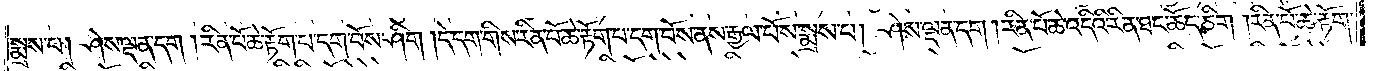སྨྲས་པ། ཤེས་ལྡན་དག །རིན་པོ་ཆེ་རྟོག་པ་དག་བོས་ཤིག །དེ་དག་གིས་རིན་པོ་ཆེ་རྟོག་པ་དག་བོས་ནས་རྒྱལ་པོས་སྨྲས་པ། ཤེས་ལྡན་དག །རིན་པོ་ཆེ་འདིའི་རིན་ཐང་ཆོད་ཅིག །རིན་པོ་ཆེ་རྟོག་
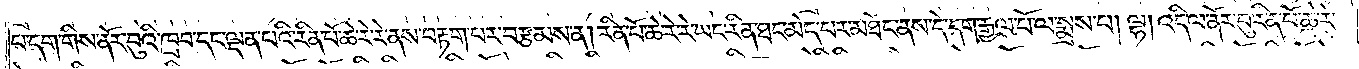པ་དག་གིས་ནོར་བུའི་ཁྲབ་དང་ལྡན་པའི་རིན་པོ་ཆེ་རེ་རེ་ནས་བརྟག་པར་བརྩམས་ན། རིན་པོ་ཆེ་རེ་རེ་ཡང་རིན་ཐང་མེད་པར་མཐོང་ནས་དེ་དག་རྒྱལ་པོ་ལ་སྨྲས་པ། ལྷ། འདི་ལ་ནོར་བུ་རིན་པོ་ཆེ་རེ་
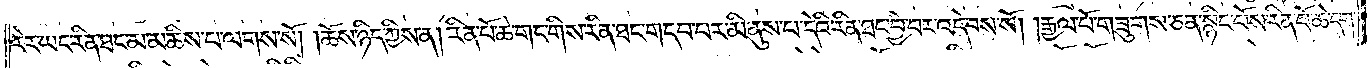རེར་ཡང་རིན་ཐང་མ་མཆིས་པ་ལགས་སོ། །ཆོས་ཉིད་ཀྱིས་ན། རིན་པོ་ཆེ་གང་གིས་རིན་ཐང་གདབ་པར་མི་ནུས་པ་དེའི་རིན་ཐང་བྱེ་བར་འདེབས་སོ། །རྒྱལ་པོ་གཟུགས་ཅན་སྙིང་པོས་རིན་པོ་ཆེ་དག་
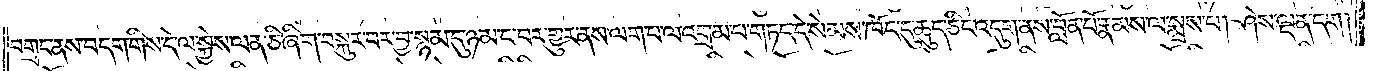བགྲང་ནས་བདག་གིས་དེ་ལ་སྐྱེས་ལན་ཅི་ཞིག་བསྐུར་བར་བྱ་སྙམ་དུ་ཉམ་ང་བར་གྱུར་ནས་ལག་པ་ལ་འགྲམ་པ་གཏད་དེ་སེམས་ཁོང་དུ་ཆུད་ཅིང་འདུག་ནས་བློན་པོ་རྣམས་ལ་སྨྲས་པ། ཤེས་ལྡན་དག།
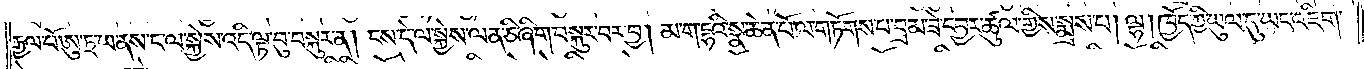རྒྱལ་པོ་ཨུ་ཏྲ་ཡ་ནས་ང་ལ་སྐྱེས་འདི་ལྟ་བུ་བསྐུར་ན། ངས་དེ་ལ་སྐྱེས་ལན་ཅི་ཞིག་བསྐུར་བར་བྱ། མ་ག་དྷའི་སྣ་ཆེན་པོ་ལ་གཏོགས་པ་བྲམ་ཟེ་དབྱར་ཚུལ་གྱིས་སྨྲས་པ། ལྷ། ཁྱོད་ཀྱི་ཡུལ་དུ་ཡང་འཇིག་
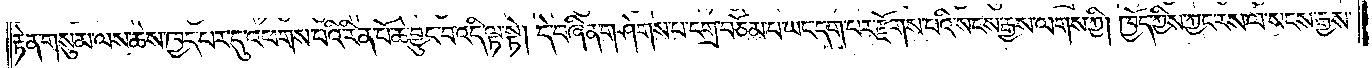རྟེན་གསུམ་ལས་ཆེས་ཁྱད་པར་དུ་འཕགས་པའི་རིན་པོ་ཆེ་བྱུང་བ་འདི་ལྟ་སྟེ། དེ་བཞིན་གཤེགས་པ་དགྲ་བཅོམ་པ་ཡང་དག་པར་རྫོགས་པའི་སངས་རྒྱས་ལགས་ཀྱི། ཁྱོད་ཀྱིས་ཀྱང་རས་ལ་སངས་རྒྱས་
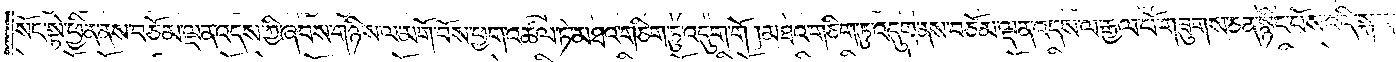སོང་སྟེ་ཕྱིན་ནས་བཅོམ་ལྡན་འདས་ཀྱི་ཞབས་གཉིས་ལ་མགོ་བོས་ཕྱག་འཚལ་ཏེ་མཐའ་གཅིག་ཏུ་འདུག་གོ །མཐའ་གཅིག་ཏུ་འདུག་ནས་བཅོམ་ལྡན་འདས་ལ་རྒྱལ་པོ་གཟུགས་ཅན་སྙིང་པོས་འདི་སྐད་
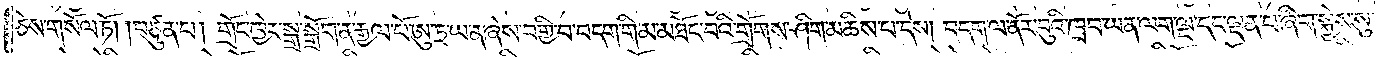ཅེས་གསོལ་ཏོ། །བཙུན་པ། གྲོང་ཁྱེར་སྒྲ་སྒྲོག་ན་རྒྱལ་པོ་ཨུ་ཏྲ་ཡ་ན་ཞེས་བགྱི་བ་བདག་གི་མཐོང་བའི་གྲོགས་ཤིག་མཆིས་པ་དེས། བདག་ལ་ནོར་བུའི་ཁྲབ་ཡན་ལག་ལྔ་དང་ལྡན་པ་ཞིག་སྐྱེས་སུ་
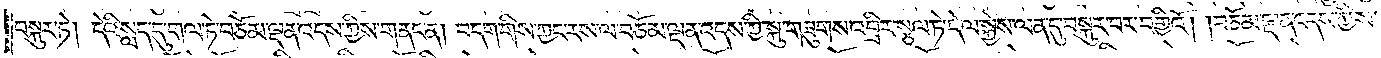བསྐུར་ཏེ། དེའི་སླད་དུ་གལ་ཏེ་བཅོམ་ལྡན་འདས་ཀྱིས་གནང་ན། བདག་གིས་ཀྱང་རས་ལ་བཅོམ་ལྡན་འདས་ཀྱི་སྐུ་གཟུགས་འབྲིར་སྩལ་ཏེ་དེ་ལ་སྐྱེས་ལན་དུ་བསྐུར་བར་བགྱིའོ། །བཅོམ་ལྡན་འདས་ཀྱིས་
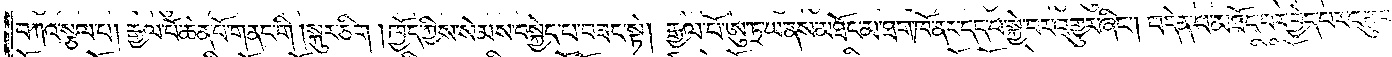བཀའ་སྩལ་པ། རྒྱལ་པོ་ཆེན་པོ་གནང་གི །སྐུར་ཅིག །ཁྱོད་ཀྱིས་སེམས་བསྐྱེད་པ་བཟང་སྟེ། རྒྱལ་པོ་ཨུ་ཏྲ་ཡ་ནས་མཐོང་མ་ཐག་ཁོ་ནར་དད་པ་སྐྱེ་བར་འགྱུར་ཞིང༌། བདེན་པ་མཐོང་བར་བྱེད་པར་འགྱུར་
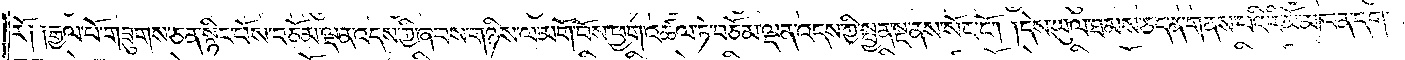རོ༑ ༑རྒྱལ་པོ་གཟུགས་ཅན་སྙིང་པོས་བཅོམ་ལྡན་འདས་ཀྱི་ཞབས་གཉིས་ལ་མགོ་བོས་ཕྱག་འཚལ་ཏེ་བཅོམ་ལྡན་འདས་ཀྱི་སྤྱན་སྔ་ནས་སོང་ངོ༌། །དེས་ཡུལ་ཐམས་ཅད་ན་གནས་པའི་རི་མོ་མཁན་དག་
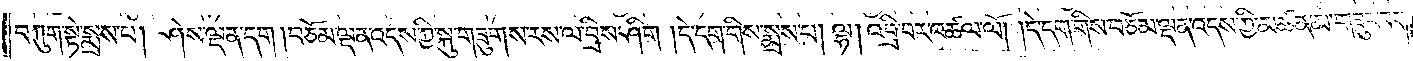བཀུག་སྟེ་སྨྲས་པ། ཤེས་ལྡན་དག །བཅོམ་ལྡན་འདས་ཀྱི་སྐུ་གཟུགས་རས་ལ་བྲིས་ཤིག །དེ་དག་གིས་སྨྲས་པ། ལྷ། འབྲི་བར་འཚལ་ལོ། །དེ་དག་གིས་བཅོམ་ལྡན་འདས་ཀྱི་མཚན་མ་གཟུང་བ་
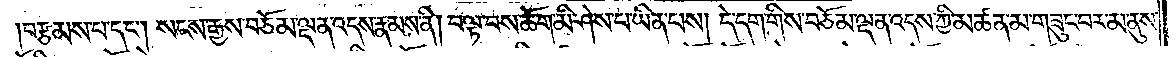བརྩམས་པ་དང༌། སངས་རྒྱས་བཅོམ་ལྡན་འདས་རྣམས་ནི། བལྟ་བས་ཆོག་མི་ཤེས་པ་ཡིན་པས། དེ་དག་གིས་བཅོམ་ལྡན་འདས་ཀྱི་མཚན་མ་གཟུང་བར་མ་ནུས་
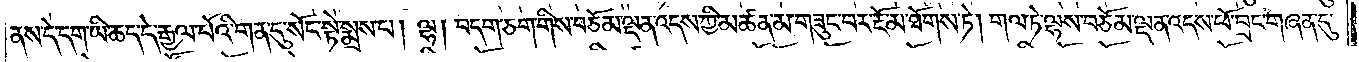ནས་དེ་དག་ཡི་ཆད་དེ་རྒྱལ་པོའི་གན་དུ་སོང་སྟེ་སྨྲས་པ། ལྷ། བདག་ཅག་གིས་བཅོམ་ལྡན་འདས་ཀྱི་མཚན་མ་གཟུང་བར་རྔོ་མ་ཐོགས་ཏེ། གལ་ཏེ་ལྷས་བཅོམ་ལྡན་འདས་ཕོ་བྲང་གཞན་དུ་
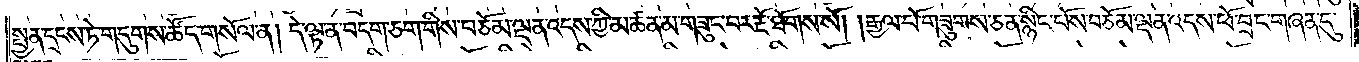སྤྱན་དྲངས་ཏེ་གདུགས་ཚོད་གསོལ་ན། དེ་ལྟ་ན་བདག་ཅག་གིས་བཅོམ་ལྡན་འདས་ཀྱི་མཚན་མ་གཟུང་བར་རྔོ་ཐོགས་སོ། །རྒྱལ་པོ་གཟུགས་ཅན་སྙིང་པོས་བཅོམ་ལྡན་འདས་ཕོ་བྲང་གཞན་དུ་
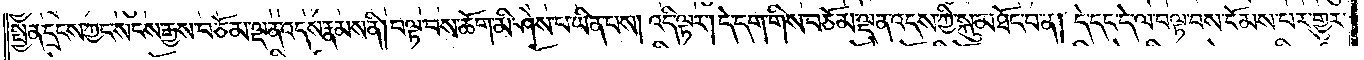སྤྱན་དྲངས་ཀྱང་སངས་རྒྱས་བཅོམ་ལྡན་འདས་རྣམས་ནི། བལྟ་བས་ཆོག་མི་ཤེས་པ་ཡིན་པས། འདི་ལྟར། དེ་དག་གིས་བཅོམ་ལྡན་འདས་ཀྱི་སྐུ་མཐོང་བ་ན། དེ་དང་དེ་ལ་བལྟ་བས་ངོམས་པར་གྱུར་
